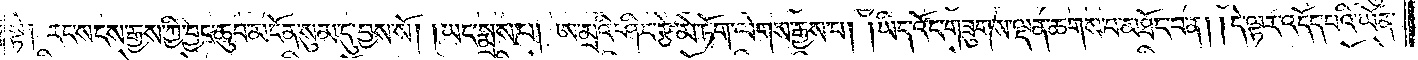སྟེ། རང་སངས་རྒྱས་ཀྱི་བྱང་ཆུབ་མངོན་སུམ་དུ་བྱས་སོ། །ཡང་སྨྲས་པ། ཨ་མྲའི་ཤིང་རྩེ་མེ་ཏོག་ལེགས་རྒྱས་པ། །ཡིད་འོང་གཟུགས་ལྡན་ཆགས་པ་མཐོང་བ་ན། །དེ་ལྟར་འདོད་པའི་ཡོན་
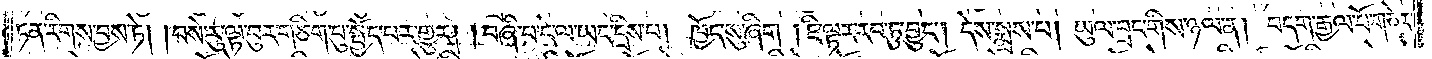ཏན་རིགས་བྱས་ཏེ། །བསེ་རུ་ལྟ་བུར་གཅིག་པུ་སྤྱོད་པར་གྱུར། །བཞི་པ་དེ་ལ་ཡང་དྲིས་པ། ཁྱོད་སུ་ཞིག །ཇི་ལྟར་རབ་ཏུ་བྱུང༌། དེས་སྨྲས་པ། ཡུལ་བྲང་གིས་ཉལ་ན། བདག་རྒྱལ་པོ་གཅེར་
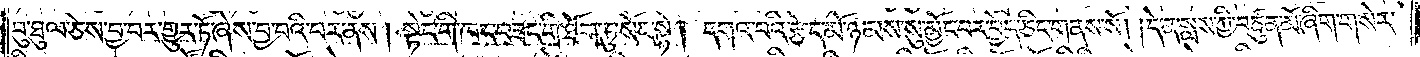བུ་ཐུལ་ཅེས་བྱ་བར་གྱུར་ཏོ་ཞེས་བྱ་བའི་བར་ནས། སྟེང་གི་ཁང་བཟང་གི་ཐོག་ཏུ་སོང་སྟེ། དགའ་བའི་རྩེད་མོ་ཉམས་སུ་མྱོང་བར་བྱེད་ཅིང་གནས་སོ། །དེ་ན་སླས་ཀྱི་བཙུན་མོ་ཞིག་གསེར་
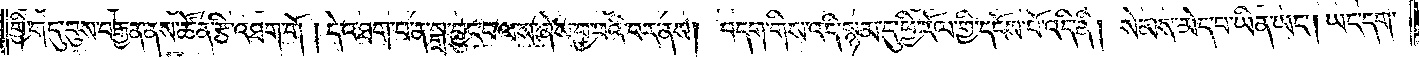གྱི་གདུ་བུས་བརྒྱན་ནས་ཚོན་རྩི་འཐག་གོ །དེ་འཐག་པ་ན་སྒྲ་བྱུང་བ་ལས་ཞེས་བྱ་བའི་བར་ནས། བདག་གིས་འདི་སྙམ་དུ་ཕྱི་རོལ་གྱི་དངོས་པོ་འདི་ནི། སེམས་མེད་པ་ཡིན་ཡང༌། ཡང་དག་
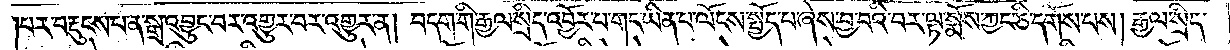པར་བརྡུངས་པ་ན་སྒྲ་འབྱུང་བར་འགྱུར་བར་འགྱུར་ན། བདག་གི་རྒྱལ་སྲིད་འབྱོར་བ་གང་ཡིན་པ་ལོངས་སྤྱོད་པ་ཞེས་བྱ་བའི་བར་ལྟ་སྨོས་ཀྱང་ཅི་དགོས་པས། རྒྱལ་སྲིད་
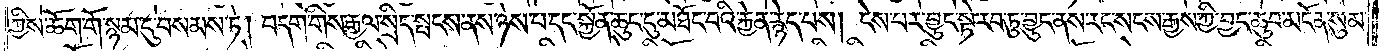ཀྱིས་ཆོག་གོ་སྙམ་དུ་བསམས་ཏེ། བདག་གིས་རྒྱལ་སྲིད་སྤངས་ནས་ཉེས་པ་དང་སྐྱོན་ཆུང་ངུ་མཐོང་བའི་རྐྱེན་རྙེད་པས། ངེས་པར་བྱུང་སྟེ་རབ་ཏུ་བྱུང་ནས་རང་སངས་རྒྱས་ཀྱི་བྱང་ཆུབ་མངོན་སུམ་
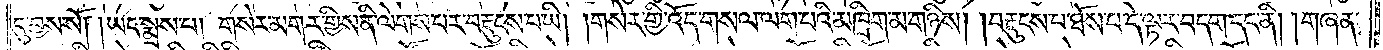དུ་བྱས་སོ། །ཡང་སྨྲས་པ། གསེར་མགར་གྱིས་ནི་ལེགས་པར་བརྡུངས་པ་ཡི། །གསེར་གྱི་འོད་གསལ་ལག་པའི་མཁྲིག་མ་གཉིས། །བརྡུངས་པ་ཐོས་པ་དེ་ལྟར་བདག་དང་ནི། །གཞན་
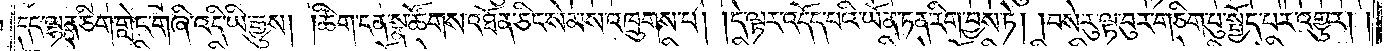དང་ལྷན་ཅིག་གླེང་གཞི་འདི་ཡི་རྒྱུས། །ཚིག་ངན་སྣ་ཚོགས་འཐོན་ཅིང་སེམས་འཁྲུགས་པ། །དེ་ལྟར་འདོད་པའི་ཡོན་ཏན་རིག་བྱས་ཏེ། །བསེ་རུ་ལྟ་བུར་གཅིག་པུ་སྤྱོད་པར་འགྱུར། །
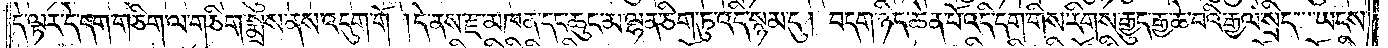དེ་ལྟར་དེ་དག་གཅིག་ལ་གཅིག་སྨྲས་ནས་འདུག་གོ །དེ་ནས་རྫ་མཁན་དང་ཆུང་མ་ལྷན་ཅིག་ཏུ་འདི་སྙམ་དུ། བདག་ཉིད་ཆེན་པོ་འདི་དག་གིས་རིགས་རྒྱུད་རྒྱ་ཆེ་བའི་རྒྱལ་སྲིད་ཡངས་
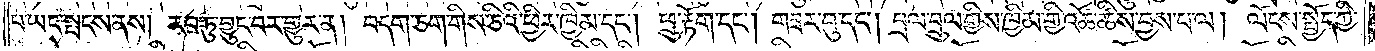པ་ཡང་སྤངས་ནས། རབ་ཏུ་བྱུང་བར་གྱུར་ན། བདག་ཅག་གིས་ཅིའི་ཕྱིར་ཁྱིམ་དང༌། ཕྲུ་རྟོག་དང༌། གཟར་བུ་དང༌། བྲལ་བྲུལ་གྱིས་ཁྱིམ་གྱི་འཚོ་ཚིས་བྱས་པ་ལ། ལོངས་སྤྱོད་ཀྱི་
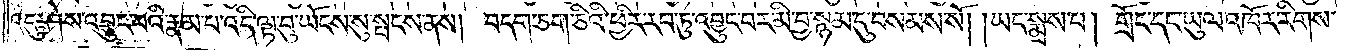འདུ་ཤེས་འབྱུང་བའི་རྣམ་པ་འདི་ལྟ་བུ་ཡོངས་སུ་སྤངས་ནས། བདག་ཅག་ཅིའི་ཕྱིར་རབ་ཏུ་འབྱུང་བར་མི་བྱ་སྙམ་དུ་བསམས་སོ། །ཡང་སྨྲས་པ། གྲོང་དང་ཡུལ་འཁོར་རིགས་
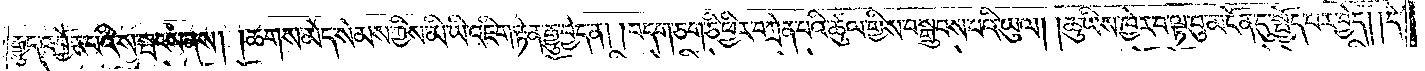རྒྱུད་འབྱོར་བའི་ས་སྤངས་ནས། །ཆགས་མེད་སེམས་ཀྱིས་མི་ཡི་འཇིག་རྟེན་རྒྱུ་བྱེད་ན། །བདག་ཅག་ཅི་ཕྱིར་བཀྲེན་པའི་ཚུལ་གྱིས་བསྒྲུབས་པའི་ཡུལ། །ཆུ་ཡིས་ཁྱེར་བ་ལྟ་བུ་མངོན་དུ་སྤྱོད་པར་བྱེད། །དེ་
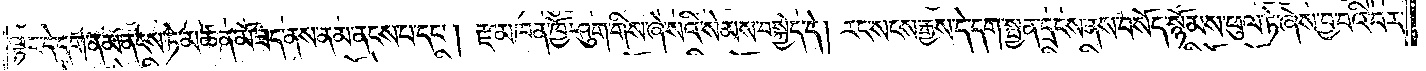ལྟར་དེ་དག་ནམ་ནངས་ཏེ་མཚན་མོ་ཟད་ནས་ནམ་ནངས་པ་དང༌། རྫ་མཁན་ཁྱོ་ཤུག་གིས་ཞེ་སའི་སེམས་བསྐྱེད་དེ། རང་སངས་རྒྱས་དེ་དག་སྤྱན་དྲངས་ནས་བསོད་སྙོམས་ཕུལ་ཏེ་ཞེས་བྱ་བའི་བར་
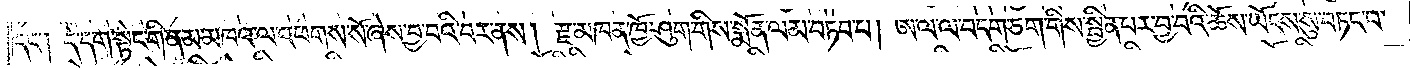དང༌། དེ་དག་སྟེང་གི་ནམ་མཁའ་ལ་འཕགས་སོ་ཞེས་བྱ་བའི་བར་ནས། རྫ་མཁན་ཁྱོ་ཤུག་གིས་སྨོན་ལམ་བཏབ་པ། ཨ་ལ་ལ་བདག་ཅག་གིས་སྦྱིན་པར་བྱ་བའི་ཆོས་ཡོངས་སུ་བཏང་བ་
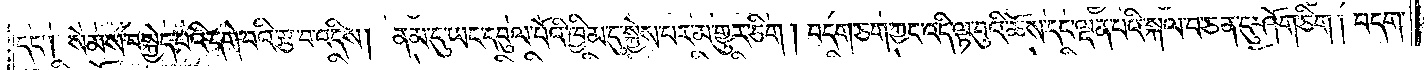དང༌། སེམས་བསྐྱེད་པའི་དགེ་བའི་རྩ་བ་འདིས། ནམ་དུ་ཡང་དབུལ་པོའི་ཁྱིམ་དུ་སྐྱེས་པར་མ་གྱུར་ཅིག །བདག་ཅག་ཀྱང་འདི་ལྟ་བུའི་ཆོས་དང་ལྡན་པའི་སྐལ་བ་ཅན་དུ་ཤོག་ཅིག །བདག་
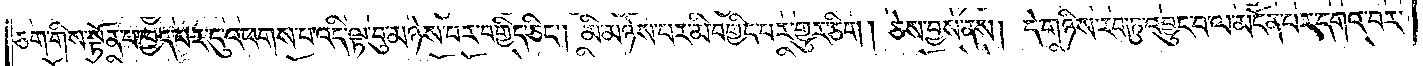ཅག་གིས་སྟོན་པ་ཁྱད་པར་དུ་འཕགས་པ་འདི་ལྟ་བུ་མཉེས་པར་བགྱིད་ཅིང༌། མི་མཉེས་པར་མི་བགྱིད་པར་གྱུར་ཅིག །ཅེས་བྱས་ནས། དེ་གཉིས་རབ་ཏུ་འབྱུང་བ་ལ་མངོན་པར་དགའ་བར་
